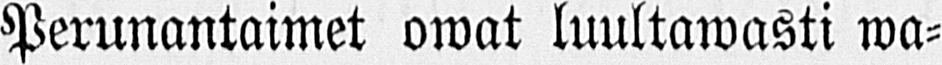Perunantaimet owat luultawasti wa-
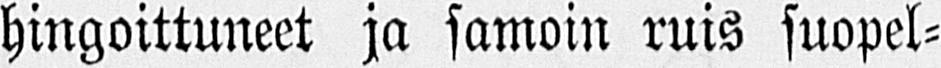hingoittuneet ja samoin ruis suopel-
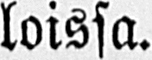loissa.
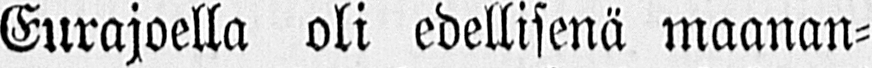Eurajoella oli edellisenä maanan-
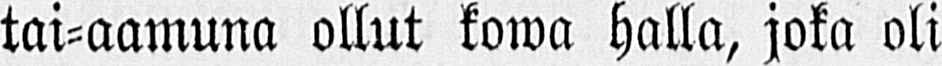tai-aamuna ollut kowa halla, joka oli
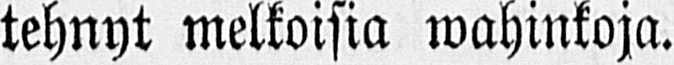tehnyt melkoisia wahinkoja.
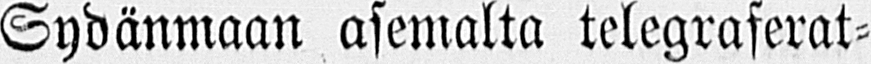Sydänmaan asemalta telegraferat-
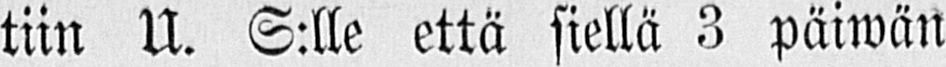tiin U. S:lle että siellä 3 päiwän
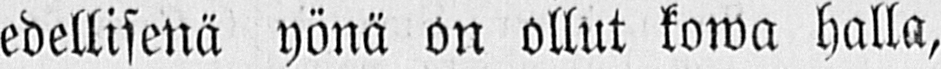edellisenä yönä on ollut korva halla,
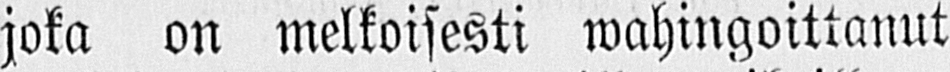joka on melkoisesti wahingoittanut
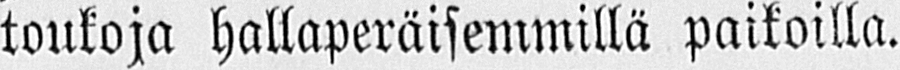toukoja hallaperäisemmillä paikoilla.
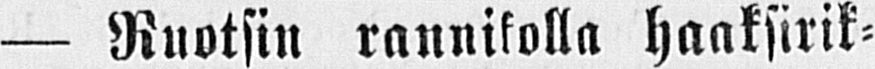— Ruotsin rannikolla haaksirik-
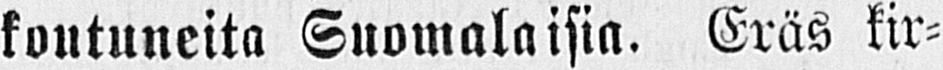koutuneita Suomalaisia. Eräs kir-
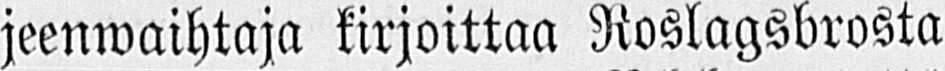jeenvaihtaja kirjoittaa Roslagsbrosta
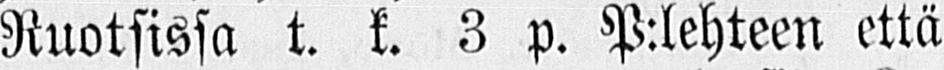Ruotsissa t. k. 3 p. P:lehteen että
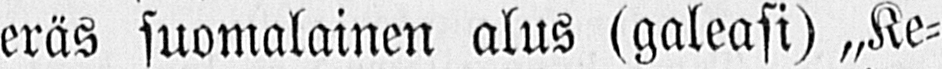eräs suomalainen alus (galeasi) Ke-
